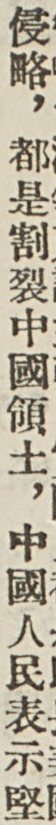侵略，都是割裂中國領土，中國人民表示堅
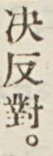決反對。
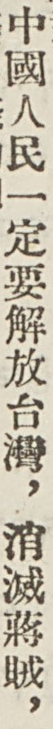中國人民一定要解放台灣，消滅蔣賊，
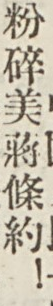粉碎美蔣條約！
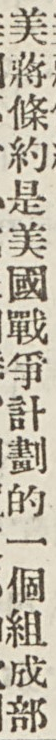美蔣條約是美國戰爭計劃的一個組成部
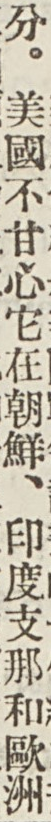分。美國不甘心它在朝鮮、印度支那和歐洲
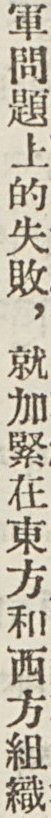軍問題上的失敗，就加緊在東方和西方組織
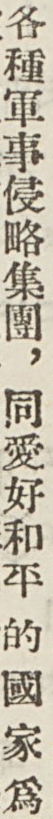各種軍事侵略集團，同改好和平 的 國家 爲
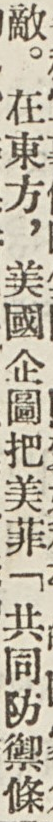敵。在東方，美國企圖把美菲「共同防禦條
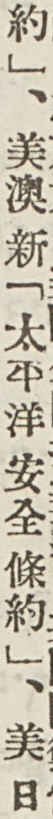約」、美澳新「太平洋 安全 條約」、美日
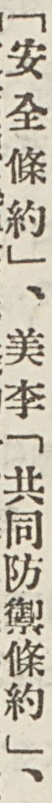「安 全 條 約」、美李「共同防禦條約」、
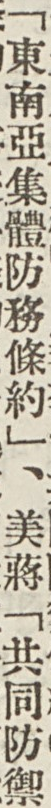「東南亞集體防務條約」、美蔣「共同防禦
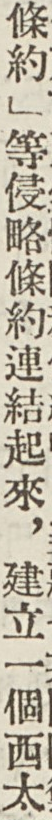條約」等侵略條約連結起來，建立一個西太
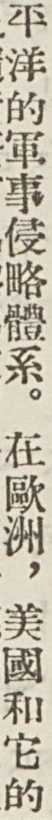平洋的軍事侵略體系。在歐洲，美國和它的
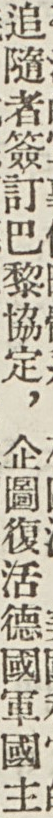追隨者簽訂巴黎協定，企圖復活德國軍國主
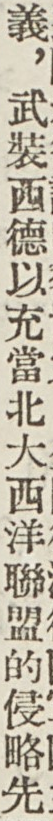義，武裝西德以充當北大西洋聯盟的侵略先
